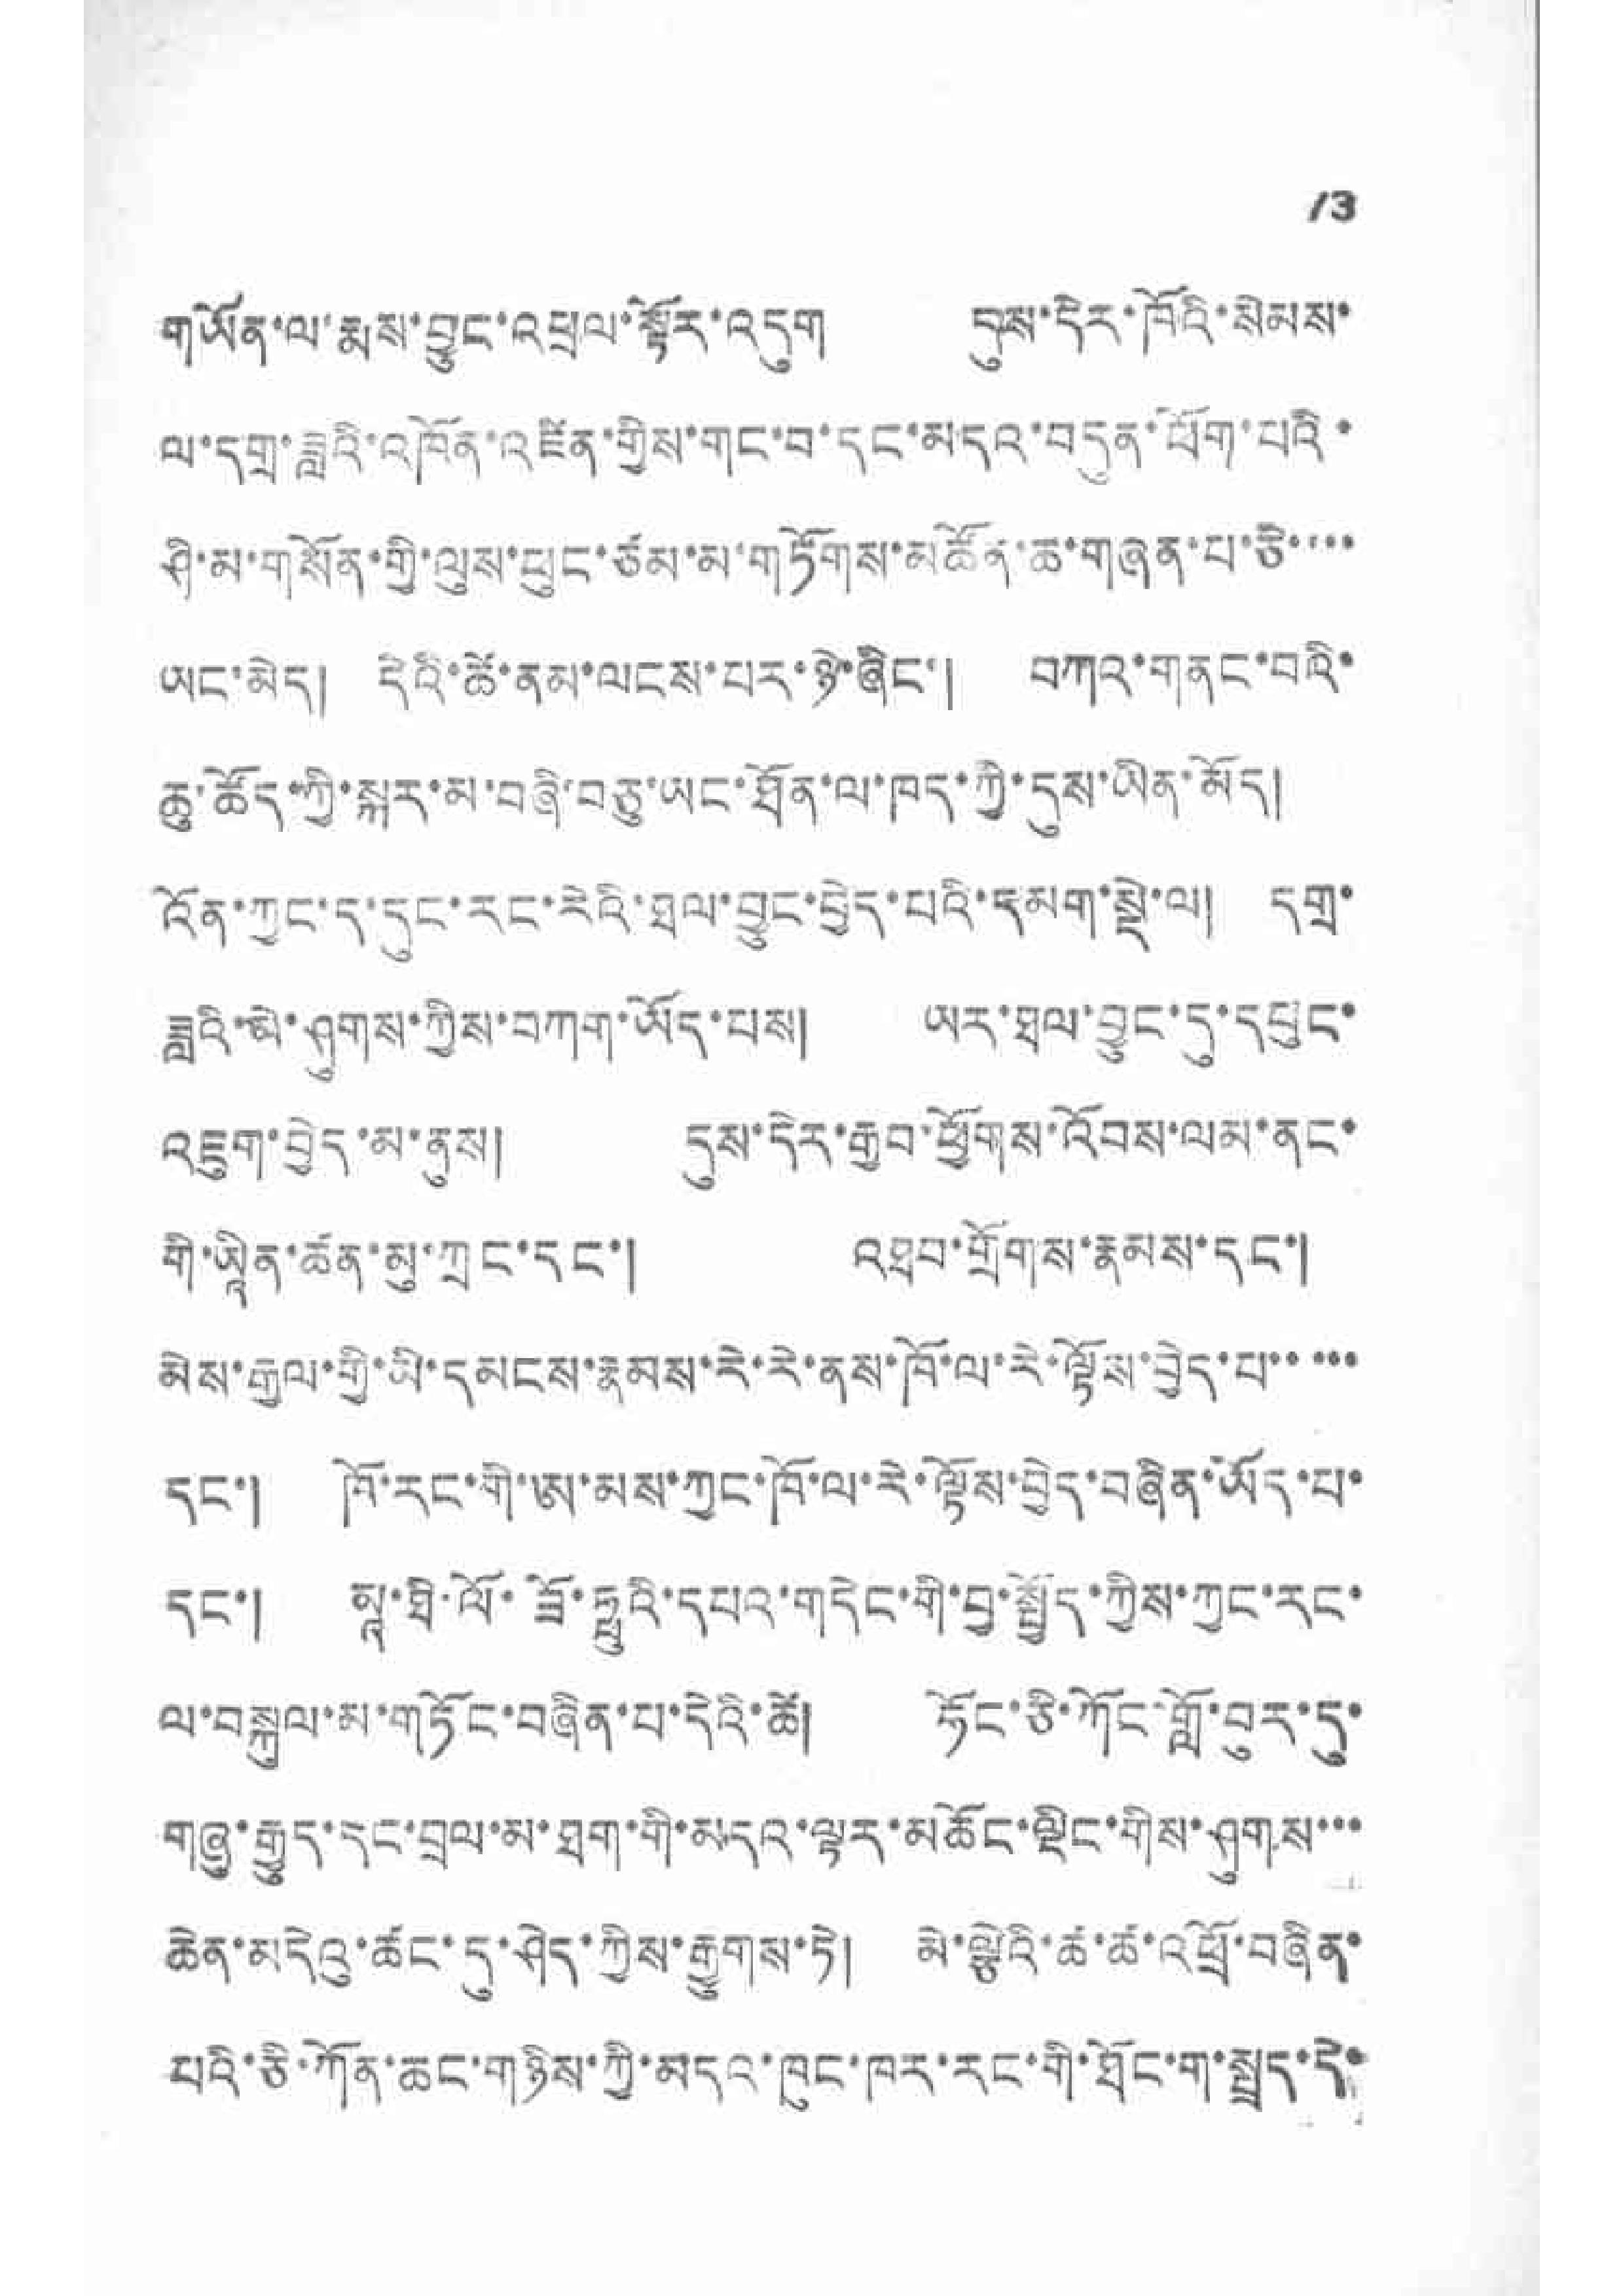13
གཡོན་ལ་རྨས་བྱུང་འཕྲལ་སྟོར་འདུག དུས་དེར་ཁོའི་སེམས་
ལ་དགྲ་ཟླའི་མཁོན་འཛིན་གྱིས་གང་བ་དང་མདའ་བདུན་ཕོག་པའི་
ཤི་མ་གསོན་གྱི་ལུས་ཕུང་ཙམ་མ་གཏོགས་མཚོན་ཆ་གཉན་པ་ཅི་་་་
ཡང་མེད། དེའི་ཚེ་ནམ་ལངས་པར་ཉེ་ཞིང་། བཀའ་གནང་བའི་
ཆུ་ཚོད་ཀྱི་སྐར་མ་བཞི་བཅུ་ཡང་ཐོན་ལ་ཁད་ཀྱི་དུས་ཡིན་མོད།
འོན་ཀྱང་ད་དུང་རང་རེའ་ཐལ་བྱུང་བྱེད་པའི་དམག་སྡེ་ལ། དགྲ་
ཟླའི་མེ་ཤུགས་ཀྱིས་བཀག་ཡོད་པས། ཡར་ཐལ་བྱུང་དུ་དཔུང་
འཇུག་བྱེད་མ་ནུས། དུས་དེར་རྒྱབ་ཕྱོགས་འོབས་ལམ་ནང་
གྱི་ཡཱིན་ཆོན་མུ་ཀྲང་དང་། འཐབ་གྲོགས་རྣམས་དང་།
མེས་རྒྱལ་གྱི་མི་དམངས་རྣམས་རེ་རེ་ནས་ཁོ་ལ་རེ་ལྟོས་བྱེད་པ་་་་་
དང་། ཁོ་རང་གི་ཨ་མས་ཀྱང་ཁོ་ལ་རེ་ལྟོས་བྱེད་བཞིན་ཡོད་པ་
དང་། མཱ་ཐི་ལོ་ཟོ་ཧྥུའི་དཔའ་གདེང་གི་བྱ་སྦྱོད་ཀྱིས་ཀྱང་དང་
ལ་བསྐུལ་མ་གཏོང་བཞིན་པ་དེའི་ཚེ། ཧོང་ཅི་ཀོང་གློ་བུར་དུ་
གཞུ་རྒྱུད་དང་བྲལ་མ་ཐག་གི་མདའ་ལྟར་མཆོང་ལྡིང་གིས་ཤུགས་་་
ཆེན་མདེའུ་ཚང་དུ་ཤེད་ཀྱིས་རྒྱུགས་ཏེ། མེ་ལྕེའི་ཚ་ཚ་འཕྲོ་བཞིན་
པའི་ཅི་ཀོན་ཆང་གཉིས་ཀྱི་མདའ་ཁུང་ཁར་རང་གི་ཐོང་ག་སྤྲད་དེ་
